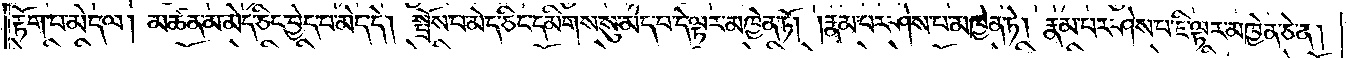རྟོག་པ་མེད་ལ། མཚན་མ་མེད་ཅིང་བྱེད་པ་མེད་དེ། སྤྲོས་པ་མེད་ཅིང་དམིགས་སུ་མེད་པ་དེ་ལྟར་མཁྱེན་ཏོ། །རྣམ་པར་ཤེས་པ་མཁྱེན་ཏེ། རྣམ་པར་ཤེས་པ་ཇི་ལྟར་མཁྱེན་ཅེ་ན།
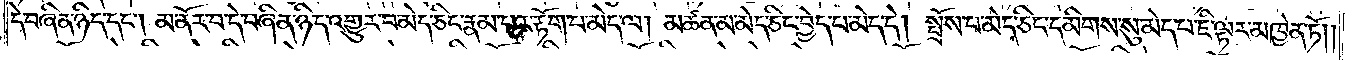དེ་བཞིན་ཉིད་དང༌། མ་ནོར་བ་དེ་བཞིན་ཉིད་འགྱུར་བ་མེད་ཅིང་རྣམ་པར་རྟོག་པ་མེད་ལ། མཚན་མ་མེད་ཅིང་བྱེད་པ་མེད་དེ། སྤྲོས་པ་མེད་ཅིང་དམིགས་སུ་མེད་པ་ཇི་ལྟར་མཁྱེན་ཏོ། །
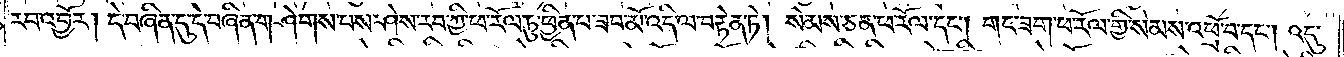རབ་འབྱོར། དེ་བཞིན་དུ་བཞིན་གཤེགས་པས་ཤེས་རབ་ཀྱི་ཕ་རོལ་ཏུ་ཕྱིན་པ་ཟབ་མོ་འདི་ལ་བརྟེན་ཏེ། སེམས་ཅན་ཕ་རོལ་དང༌། གང་ཟག་ཕ་རོལ་གྱི་སེམས་འཕྲོ་བ་དང༌། འདུ་
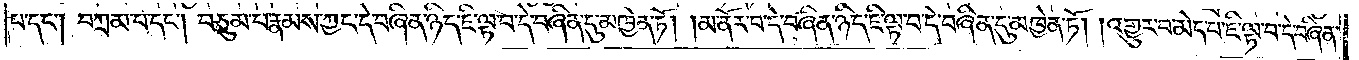བ་དང༌། བཀྲམ་པ་དང༌། བཅུམ་པ་རྣམས་ཀྱང་དེ་བཞིན་ཉིད་ཇི་ལྟ་བ་དེ་བཞིན་མཁྱེན་ཏོ། །མ་ནོར་བ་དེ་བཞིན་ཉིད་ཇི་ལྟ་བ་དེ་བཞིན་དུ་མཁྱེན་ཏོ། །འགྱུར་བ་མེད་པ་ཇི་ལྟ་བ་དེ་བཞིན་
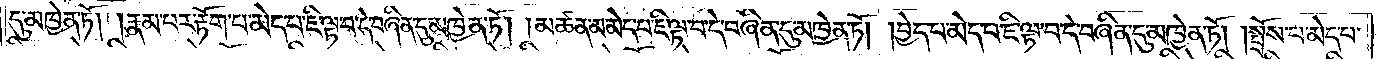དུ་མཁྱེན་ཏོ། །རྣམ་པར་རྟོག་པ་མེད་པ་ཇི་ལྟ་བ་དེ་བཞིན་དུ་མཁྱེན་ཏོ། །མཚན་མ་མེད་པ་ཇི་ལྟ་བ་དེ་བཞིན་དུ་མཁྱེན་ཏོ། །བྱེད་པ་མེད་པ་ཇི་ལྟ་བ་དེ་བཞིན་དུ་མཁྱེན་ཏོ། །སྤྲོས་པ་མེད་པ་
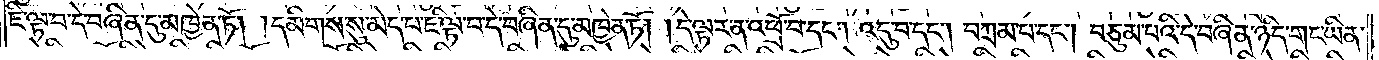ཇི་ལྟ་བ་དེ་བཞིན་དུ་མཁྱེན་ཏོ། །དམིགས་སུ་མེད་པ་ཇི་ལྟ་བ་དེ་བཞིན་དུ་མཁྱེན་ཏོ། །དེ་ལྟར་ན་འཕྲོ་བ་དང༌། འདུ་བ་དང༌། བཀྲམ་པ་དང༌། བཅུམ་པའི་དེ་བཞིན་ཉིད་གང་ཡིན་
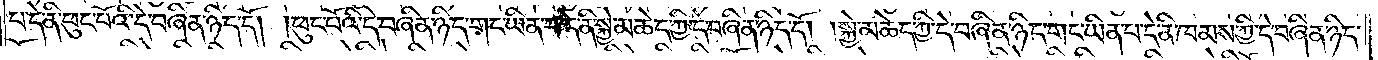པ་དེ་ནི་ཕུང་པོའི་དེ་བཞིན་ཉིད་དོ། །ཕུང་པོའི་དེ་བཞིན་ཉིད་གང་ཡིན་པ་དེ་ནི་སྐྱེ་མཆེད་ཀྱི་དེ་བཞིན་ཉིད་དོ། །སྐྱེ་མཆེད་ཀྱི་དེ་བཞིན་ཉིད་གང་ཡིན་པ་དེ་ནི་ཁམས་ཀྱི་དེ་བཞིན་ཉིད་
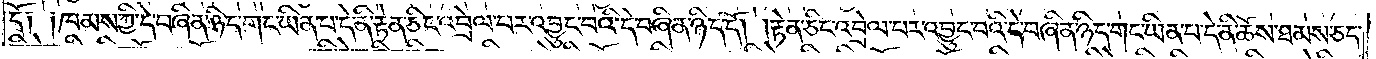དོ༑ ༑ཁམས་ཀྱི་དེ་བཞིན་ཉིད་གང་ཡིན་པ་དེ་ནི་རྟེན་ཅིང་འབྲེལ་པར་འབྱུང་བའི་དེ་བཞིན་ཉིད་དོ། །རྟེན་ཅིང་འབྲེལ་པར་འབྱུང་བའི་དེ་བཞིན་ཉིད་གང་ཡིན་པ་དེ་ནི་ཆོས་ཐམས་ཅད་
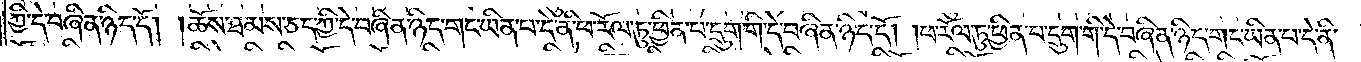ཀྱི་དེ་བཞིན་ཉིད་དོ། །ཆོས་ཐམས་ཅད་ཀྱི་དེ་བཞིན་ཉིད་གང་ཡིན་པ་དེ་ནི་ཕ་རོལ་ཏུ་ཕྱིན་པ་དྲུག་གི་དེ་བཞིན་ཉིད་དོ། །ཕ་རོལ་ཏུ་ཕྱིན་པ་དྲུག་གི་དེ་བཞིན་ཉིད་གང་ཡིན་པ་དེ་ནི་
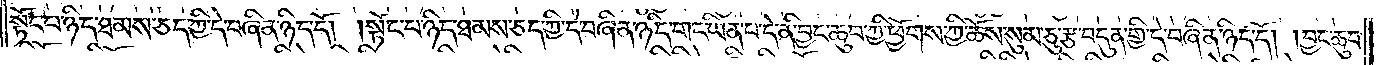སྟོང་པ་ཉིད་ཐམས་ཅད་ཀྱི་དེ་བཞིན་ཉིད་དོ། །སྟོང་པ་ཉིད་ཐམས་ཅད་ཀྱི་དེ་བཞིན་ཉིད་གང་ཡིན་པ་དེ་ནི་བྱང་ཆུབ་ཀྱི་ཕྱོགས་ཀྱི་ཆོས་སུམ་ཅུ་རྩ་བདུན་གྱི་དེ་བཞིན་ཉིད་དོ། །བྱང་ཆུབ་
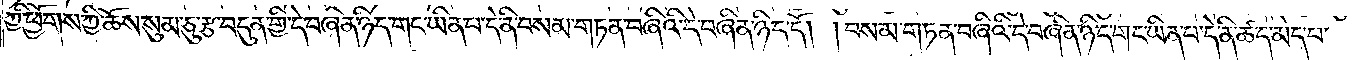ཀྱི་ཕྱོགས་ཀྱི་ཆོས་སུམ་ཅུ་རྩ་བདུན་གྱི་དེ་བཞིན་ཉིད་གང་ཡིན་པ་དེ་ནི་བསམ་གཏན་བཞིའི་དེ་བཞིན་ཉིད་དོ། །བསམ་གཏན་བཞིའི་དེ་བཞིན་ཉིད་གང་ཡིན་པ་དེ་ནི་ཚད་མེད་པ་
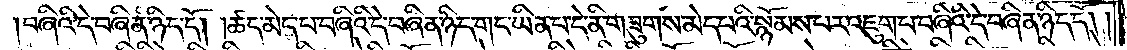བཞིའི་དེ་བཞིན་ཉིད་དོ། །ཚད་མེད་པ་བཞིའི་དེ་བཞིན་ཉིད་གང་ཡིན་པ་དེ་ནི་གཟུགས་མེད་པའི་སྙོམས་པར་འཇུག་པ་བཞིའི་དེ་བཞིན་ཉིད་དོ། །
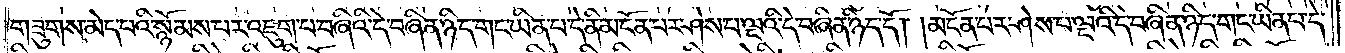གཟུགས་མེད་པའི་སྙོམས་པར་འཇུག་པ་བཞིའི་དེ་བཞིན་ཉིད་གང་ཡིན་པ་དེ་ནི་མངོན་པར་ཤེས་པ་ལྔའི་དེ་བཞིན་ཉིད་དོ། །མངོན་པར་ཤེས་པ་ལྔའི་དེ་བཞིན་ཉིད་གང་ཡིན་པ་དེ་
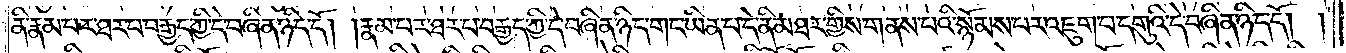ནི་རྣམ་པར་ཐར་པ་བརྒྱད་ཀྱི་དེ་བཞིན་ཉིད་དོ། །རྣམ་པར་ཐར་པ་བརྒྱད་ཀྱི་དེ་བཞིན་ཉིད་གང་ཡིན་པ་དེ་ནི་མཐར་གྱིས་གནས་པའི་སྙོམས་པར་འཇུག་པ་དགུའི་དེ་བཞིན་ཉིད་དོ། །
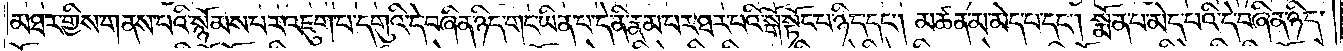མཐར་གྱིས་གནས་པའི་སྙོམས་པར་འཇུག་པ་དགུའི་དེ་བཞིན་ཉིད་གང་ཡིན་པ་དེ་ནི་རྣམ་པར་ཐར་པའི་སྒོ་སྟོང་པ་ཉིད་དང༌། མཚན་མ་མེད་པ་དང༌། སྨོན་པ་མེད་པའི་དེ་བཞིན་ཉིད་
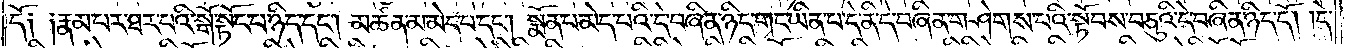དོ༑ ༑རྣམ་པར་ཐར་པའི་སྒོ་སྟོང་པ་ཉིད་དང༌། མཚན་མ་མེད་པ་དང༌། སྨོན་པ་མེད་པའི་དེ་བཞིན་ཉིད་གང་ཡིན་པ་དེ་ནི་དེ་བཞིན་གཤེགས་པའི་སྟོབས་བཅུའི་དེ་བཞིན་ཉིད་དོ། །དེ་
